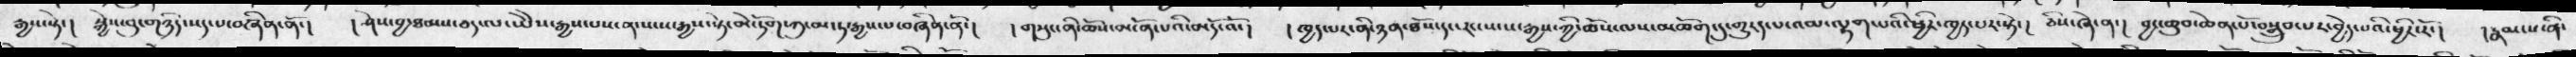རྒྱས་སྟེ་།  སྐྱེས་བུ་གཉིད་སད་པ་བཞིན་ནོ་།  ། ཤེས་བྱ་ཐམས་ཅད་ལ་ཡེེས་རྒྱས་པས་ན་སངས་རྒྱས་སྟེ་མེ་ཏོག་ཀུ་མ་ཏ་རྒྱས་པ་མཞིན་ནོ་།  ། གསུང་ནི་ཆོས་མངོན་པའི་མདོ་འོ་།  ། ཁྱད་པར་ནི་ཉན་ཐོས་དང་རང་སངས་རྒྱས་ཀྱི་ཆོས་ལས་མཆོག་དུ་གྱུརད་པ་འམ་ལྷག་པའི་ཕྱིར་ཁྱད་པར་སྟེ་།  ཅེས་ཞེ་ན་།  བྱང་ཆུབ་ཆེན་པོ་བསྒྲུབ་པར་བྱེད་པའི་ཕྱིར་རོ་།  །རྣམ་པ་ནི་
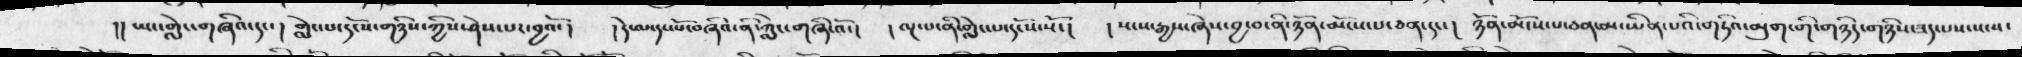།། ཡང་གླེང་གཞིའ་དང་།  གླེང་པ་དངོས་གཉིས་ཀྱིས་ཤེས་པར་བྱའོ་།   ། དེ་ལ་དང་པོ་བཞིའ་ནི་ཀླེང་གཞི་འོ་།  ། ལྔ་པ་ནི་གླེང་པ་དངོས་སོ་།  ། སངས་རྒྱས་ཞེས་བྱ་བ་ནི་ཉོན་མོངས་པ་ཅན་དང་།  ཉོན་མོངས་པ་ཅན་མ་ཡིན་པའི་གཏིའ་མུག་གི་གཉིད་གཉིས་ཟད་པས་སངས་
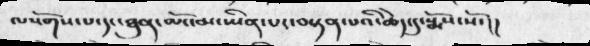ལསོགས་པ་དང་ཐུན་མོང་མ་ཡིན་པར་བསྟན་པའི་ཆེད་དུ་སྨོས་སོ་།།
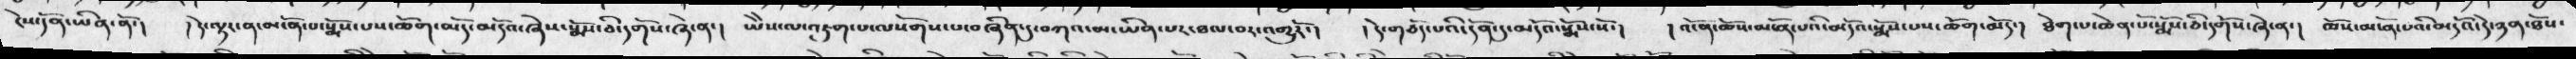ངེས་དོན་ཡིན་ནོ་།  ། དེ་ལྟར་ན་མངོན་པ་སྨོས་པས་ཆོག་མདོ་མདོའ་ཞེས་སྨོས་ཅི་དགོས་ཞེ་ན་།  ཡེེས་ལ་འཇུག་པ་ལསོགས་པ་བཞིན་དུ་བཀའ་མ་ཡིན་པར་ཐལ་བར་འགྱུརོ་།  ། དེ་གཅོད་པའི་དོན་དུ་མདོའ་སྨོས་སོ་།   ། འོ་ན་ཆོས་མངོན་པའི་མདོའ་སྨོས་པས་ཆོག་མོད་།   ཐེག་པ་ཆེན་པོ་སྨོས་ཅི་དགོས་ཞེ་ན་།  ཆོས་མངོན་པའི་མདོའ་དེ་ཉན་ཐོས་
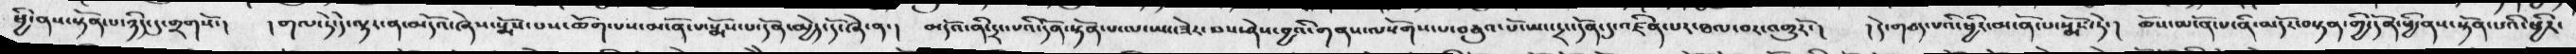ཕྱི་ནས་སྟོན་པ་ཉིད་དུ་གྲགསོ་།  ། གལ་ཏེ་དེ་ལྟར་ན་མདོའ་ཞེས་སྨོས་པས་ཆོག་པས་མངོན་པ་སྨོས་པ་དོན་མྱེད་དོ་ཞེ་ན་།  མདོའ་ནི་དྲང་པའི་དོན་སྟོན་པ་ལ་ཡང་ཟེར་བས་ཤེས་བྱའི་གནས་ལསོགས་པ་བཅུའ་པོ་ཡང་དྲང་དོན་དུ་འཛིན་པར་ཐལ་བར་འགྱུརོ་།  ། དེ་གཅད་པའི་ཕྱིར་མངོན་པ་སྨོས་ཏེ་།  ཆོས་མངོན་པ་ནི་མདོར་བསྟན་གྱི་དོན་ཕྱི་ནས་སྟོན་པའི་ཕྱིར་
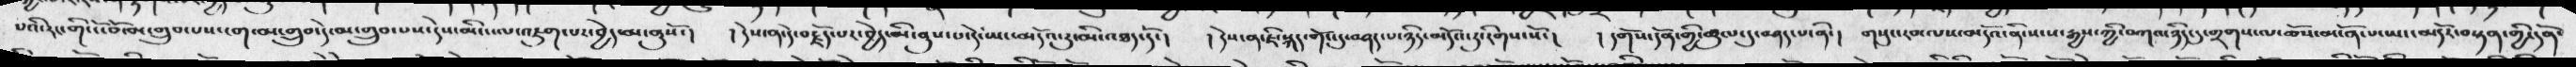པའི་རང་གི་ངོ་མོ་མ་གྲུབ་པས་ངག་མ་གྲུབ་དེ་མ་གྲུབ་པས་དེས་མིང་ལ་འཇུག་པར་བྱེད་མ་ནུས་སོ་།   ། དེས་ན་དེ་བརྗོད་པར་བྱེད་མི་ནུས་པ་དེ་ཡང་མདོའ་རུ་མི་འཐད་དོ་།   ། དེས་ན་ཇི་སྐད་གོང་དུ་བཤད་པ་ཉིད་མདོའ་རུ་རིགས་སོ་།  ། དགོས་དོན་གྱི་ཚུལ་དུ་བཤད་པ་ནི་།  གསུང་རབ་ལས་མདོའ་ནི་སངས་རྒྱས་ཀྱི་བཀའ་ཉིད་དུ་གྲགས་ལ་ཆོས་མངོན་པ་ཡང་མདོར་བསྟན་གྱི་དོན་
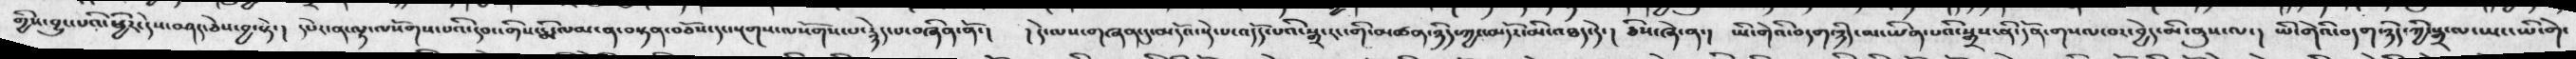གྱིས་བྱུང་པའི་སྦྱོར་དེས་བཤད་ཅེས་བྱ་སྟེ་།  དཔེར་ན་ལྷ་ལསོགས་པའི་དབང་གིས་རྨི་ལམ་ན་བསྟན་བཅོས་དང་སྔགས་ལསོགས་པ་རྙེད་པ་བཞིན་ནོ་།   ། དེ་ལས་གཞན་དུ་མདོའ་སྡེ་པ་འདོད་པའི་སྒྲ་རང་གི་མཚན་ཉིད་ཀྱང་མདོར་མི་འཐད་དེ་།  ཡི་གེའི་བདག་ཉིད་མ་ཡིན་པའི་སྒྲས་ནི་དོན་གསལ་བར་བྱེད་མི་ནུས་ལ་། ཡི་གེའི་བདག་ཉིད་ཀྱི་སྒྲ་ལ་ཡང་ཡི་གེ་
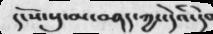དངོས་སུ་མ་བཤད་ཀྱང་དེའི་དེབ
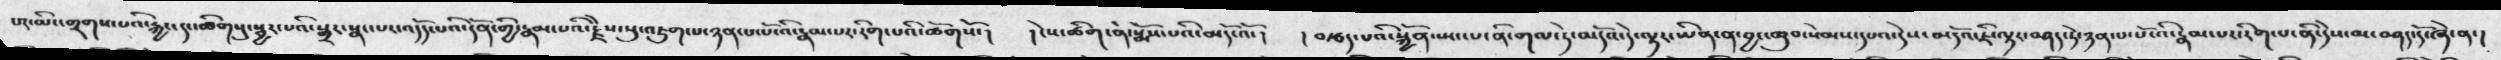པར་མིང་གྲགས་པའི་རྐྱང་དང་ཚིགསུ་སྦྱར་པའི་སྒྲར་སྣང་པར་འདོད་པའི་དོན་གྱི་རྣམ་པའི་རྗེས་སུ་འཇུག་པ་ཉན་པ་པོའི་རྣམ་པར་རིག་པའི་ཚོགསོ་།  ངེས་ཚིག་ནི་སྨོས་པའི་མདོ་འོ་།  །བརྩད་པའི་སྐྱོན་སྤངས་པ་ནི་གལ་ཏེ་མདོའ་དེ་ལྟར་ཡིན་ན་བྱང་ཆུབ་སེམས་དཔའ་དེས་མདོའ་ཇི་ལྟར་བཤད་ཏེ་ཉན་པ་པོའི་རྣམ་པར་རིག་པ་ནི་དེས་མ་བཤད་དོ་ཞེ་ན་།
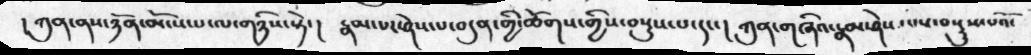། ཀུན་ནས་ཉོན་མོངས་པ་ལ་གཉིས་སྟེ་།  རྣམ་པར་ཤེས་པ་བདུན་གྱི་ཚོགས་གྱིས་བསྡུས་པ་དང་།  ཀུན་གཞིའ་རྣམ་ཤེས་པས་བསྡུས་པའོ་
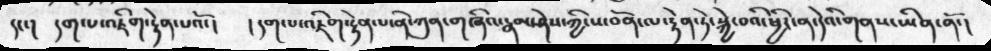དང་།  དག་པ་འཇིག་རྟེན་པའོ་།   ། དག་པ་འཇིག་རྟེན་པ་ནི་ཀུན་གཞིའ་རྣམ་ཤེས་ཀྱི་ས་བོན་ལ་རྟེན་ཏེ་སྐྱེ་བའི་སྦྱོར་ན་དེའི་གནས་ཡིན་ནོ་།
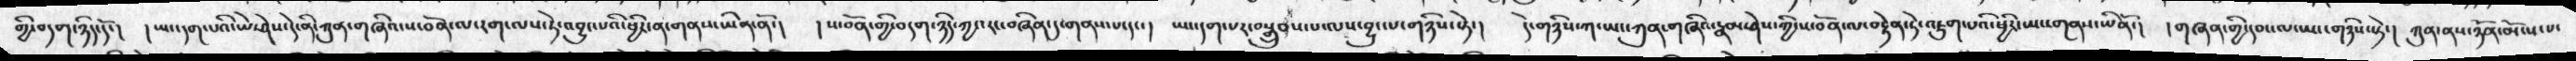གྱི་བདག་ཉིད་དོ་།  །ཡང་དག་པའི་ཡེ་ཤེས་དེ་ནི་ཀུན་གཞིའ་ས་བོན་ལ་རག་ལས་ཏེ་འབྱུང་པའི་ཕྱིར་ན་གནས་ཡིན་ནོ་།  ། ས་བོན་གྱི་བདག་ཉིད་ཀྱང་རང་བཞིན་དུ་གནས་པ་དང་།  ཡང་དག་པར་བསྒྲུབས་པ་ལས་བྱུང་པ་གཉིས་སྟེ་།  དེ་གཉིས་ཀ་ཡང་ཀུན་གཞིའ་རྣམ་ཤེས་ཀྱི་ས་བོན་ལ་བརྟེན་དེ་འཇུག་པའི་སྦྱོར་ཡང་གནས་ཡིནོ་། ། གཞན་གྱི་དབང་ལ་ཡང་གཉིས་སྟེ་།  ཀུན་ནས་ཉོན་མོངས་པ་
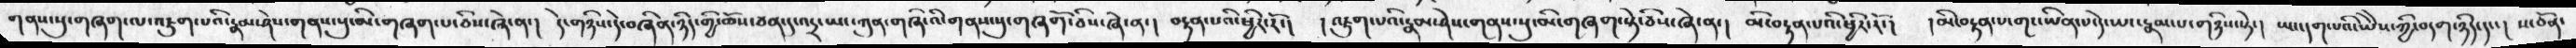གནས་སུ་བཞག་ལ་འཇུག་པའི་རྣམ་ཤེས་གནས་སུ་མི་བཞག་པ་ཅིས་ཞེ་ན་།  དེ་གཉིས་དེ་བཞིན་ཉིད་གྱི་ཆོས་ཅན་དུ་འདྲ་ཡང་ཀུན་གཞིའི་གནས་སུ་བཞགོ་ཅིས་ཞེ་ན་།  བརྟན་པའི་ཕྱིར་རོ་།  ། འཇུག་པའི་རྣམ་ཤེས་གནས་སུ་མི་བཞག་སྟེ་ཅིས་ཞེ་ན་།  མི་བརྟན་པའི་ཕྱིར་རོ་། །མི་བརྟན་པ་གང་ཡིན་པ་དེ་ཡང་རྣམ་པ་གཉིས་སྟེ་།  ཡང་དག་པའི་ཡེེས་ཀྱི་བདག་ཉིད་དང་།   ས་བོན་
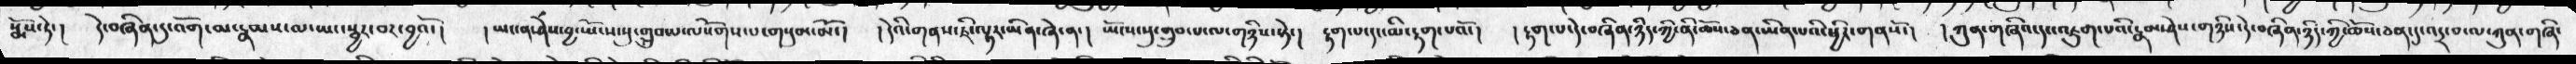སྨོས་ཏེ་།  དེ་བཞིན་དུ་འོག་མ་རྣམས་ལ་ཡང་སྦྱར་བར་བྱའོ་།  ། ཡང་ན་ཤེས་བྱ་ཡོངས་སུ་གྲུབ་པ་ལསོགས་པ་གསུམ་མོ་།  ། དེའི་གནས་ཇི་ལྟར་ཡིན་ཞེ་ན་།  ཡོངས་སུ་གྲུབ་པ་ལ་གཉིས་སྟེ་།  རྟག་པ་དང་མི་རྟག་པའོ་། ། རྟག་པ་དེ་བཞིན་ཉིད་ཀྱི་ནི་ཆོས་ཅན་ཡིན་པའི་ཕྱིར་གནསོ་།  ། ཀུན་གཞིའ་དང་འཇུག་པའི་རྣམ་ཤེས་གཉིས་དེ་བཞིན་ཉིད་ཀྱི་ཆོས་ཅན་དུ་འདྲ་བ་ལ་ཀུན་གཞི་
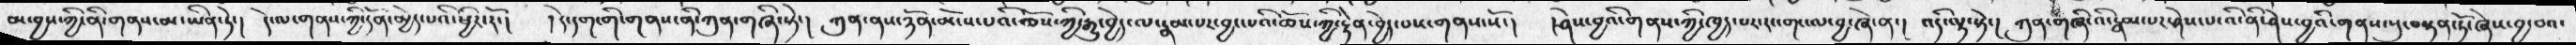མ་བྱས་ཀྱི་ནི་གནས་མ་ཡིན་ཏེ་།  དེ་ལ་གནས་ཀྱི་དོན་མྱེད་པའི་ཕྱིར་རོ་། ། དེ་དག་གི་གནས་ནི་ཀུན་གཞི་སྟེ་།   ཀུན་ནས་ཉོན་མོང་པའི་ཆོས་ཀྱི་རྒྱུ་བྱེད་ལ་རྣམ་པར་བྱ་པའི་ཆོས་ཀྱི་རྟེན་བྱེད་བས་གནས་སོ་།   །ཤེས་བྱའི་གནས་ཀྱི་ཁྱད་པར་རང་གང་ལ་བྱ་ཞེ་ན་།  འདི་ལྟ་སྟེ་། ཀུན་གཞི་འི་རྣམ་པར་ཤེས་པ་འི་ནི་ཤེས་བྱའི་གནས་་སུ་བསྟན་ཏོ་ཞེས་བྱ་བའ་
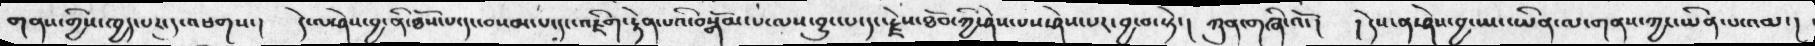གནས་གྱིས་ཁྱད་པར་དུ་འཕགས་།  དེ་ལ་ཤེས་བྱ་ནི་ཐོས་པ་དང་བསམ་པ་དང་འཇིག་རྟེན་པའི་བསྒོམ་པ་ལས་བྱུང་པ་དང་རྗེས་ཐོབ་ཀྱི་ཤེས་པས་ཤེས་པར་བྱ་བ་སྟེ་།  ཀུན་གཞི་འོ་།   ། དེས་ན་ཤེས་བྱ་ཡང་ཡིན་ལ་གནས་ཀྱང་ཡིན་པ་འམ་།
